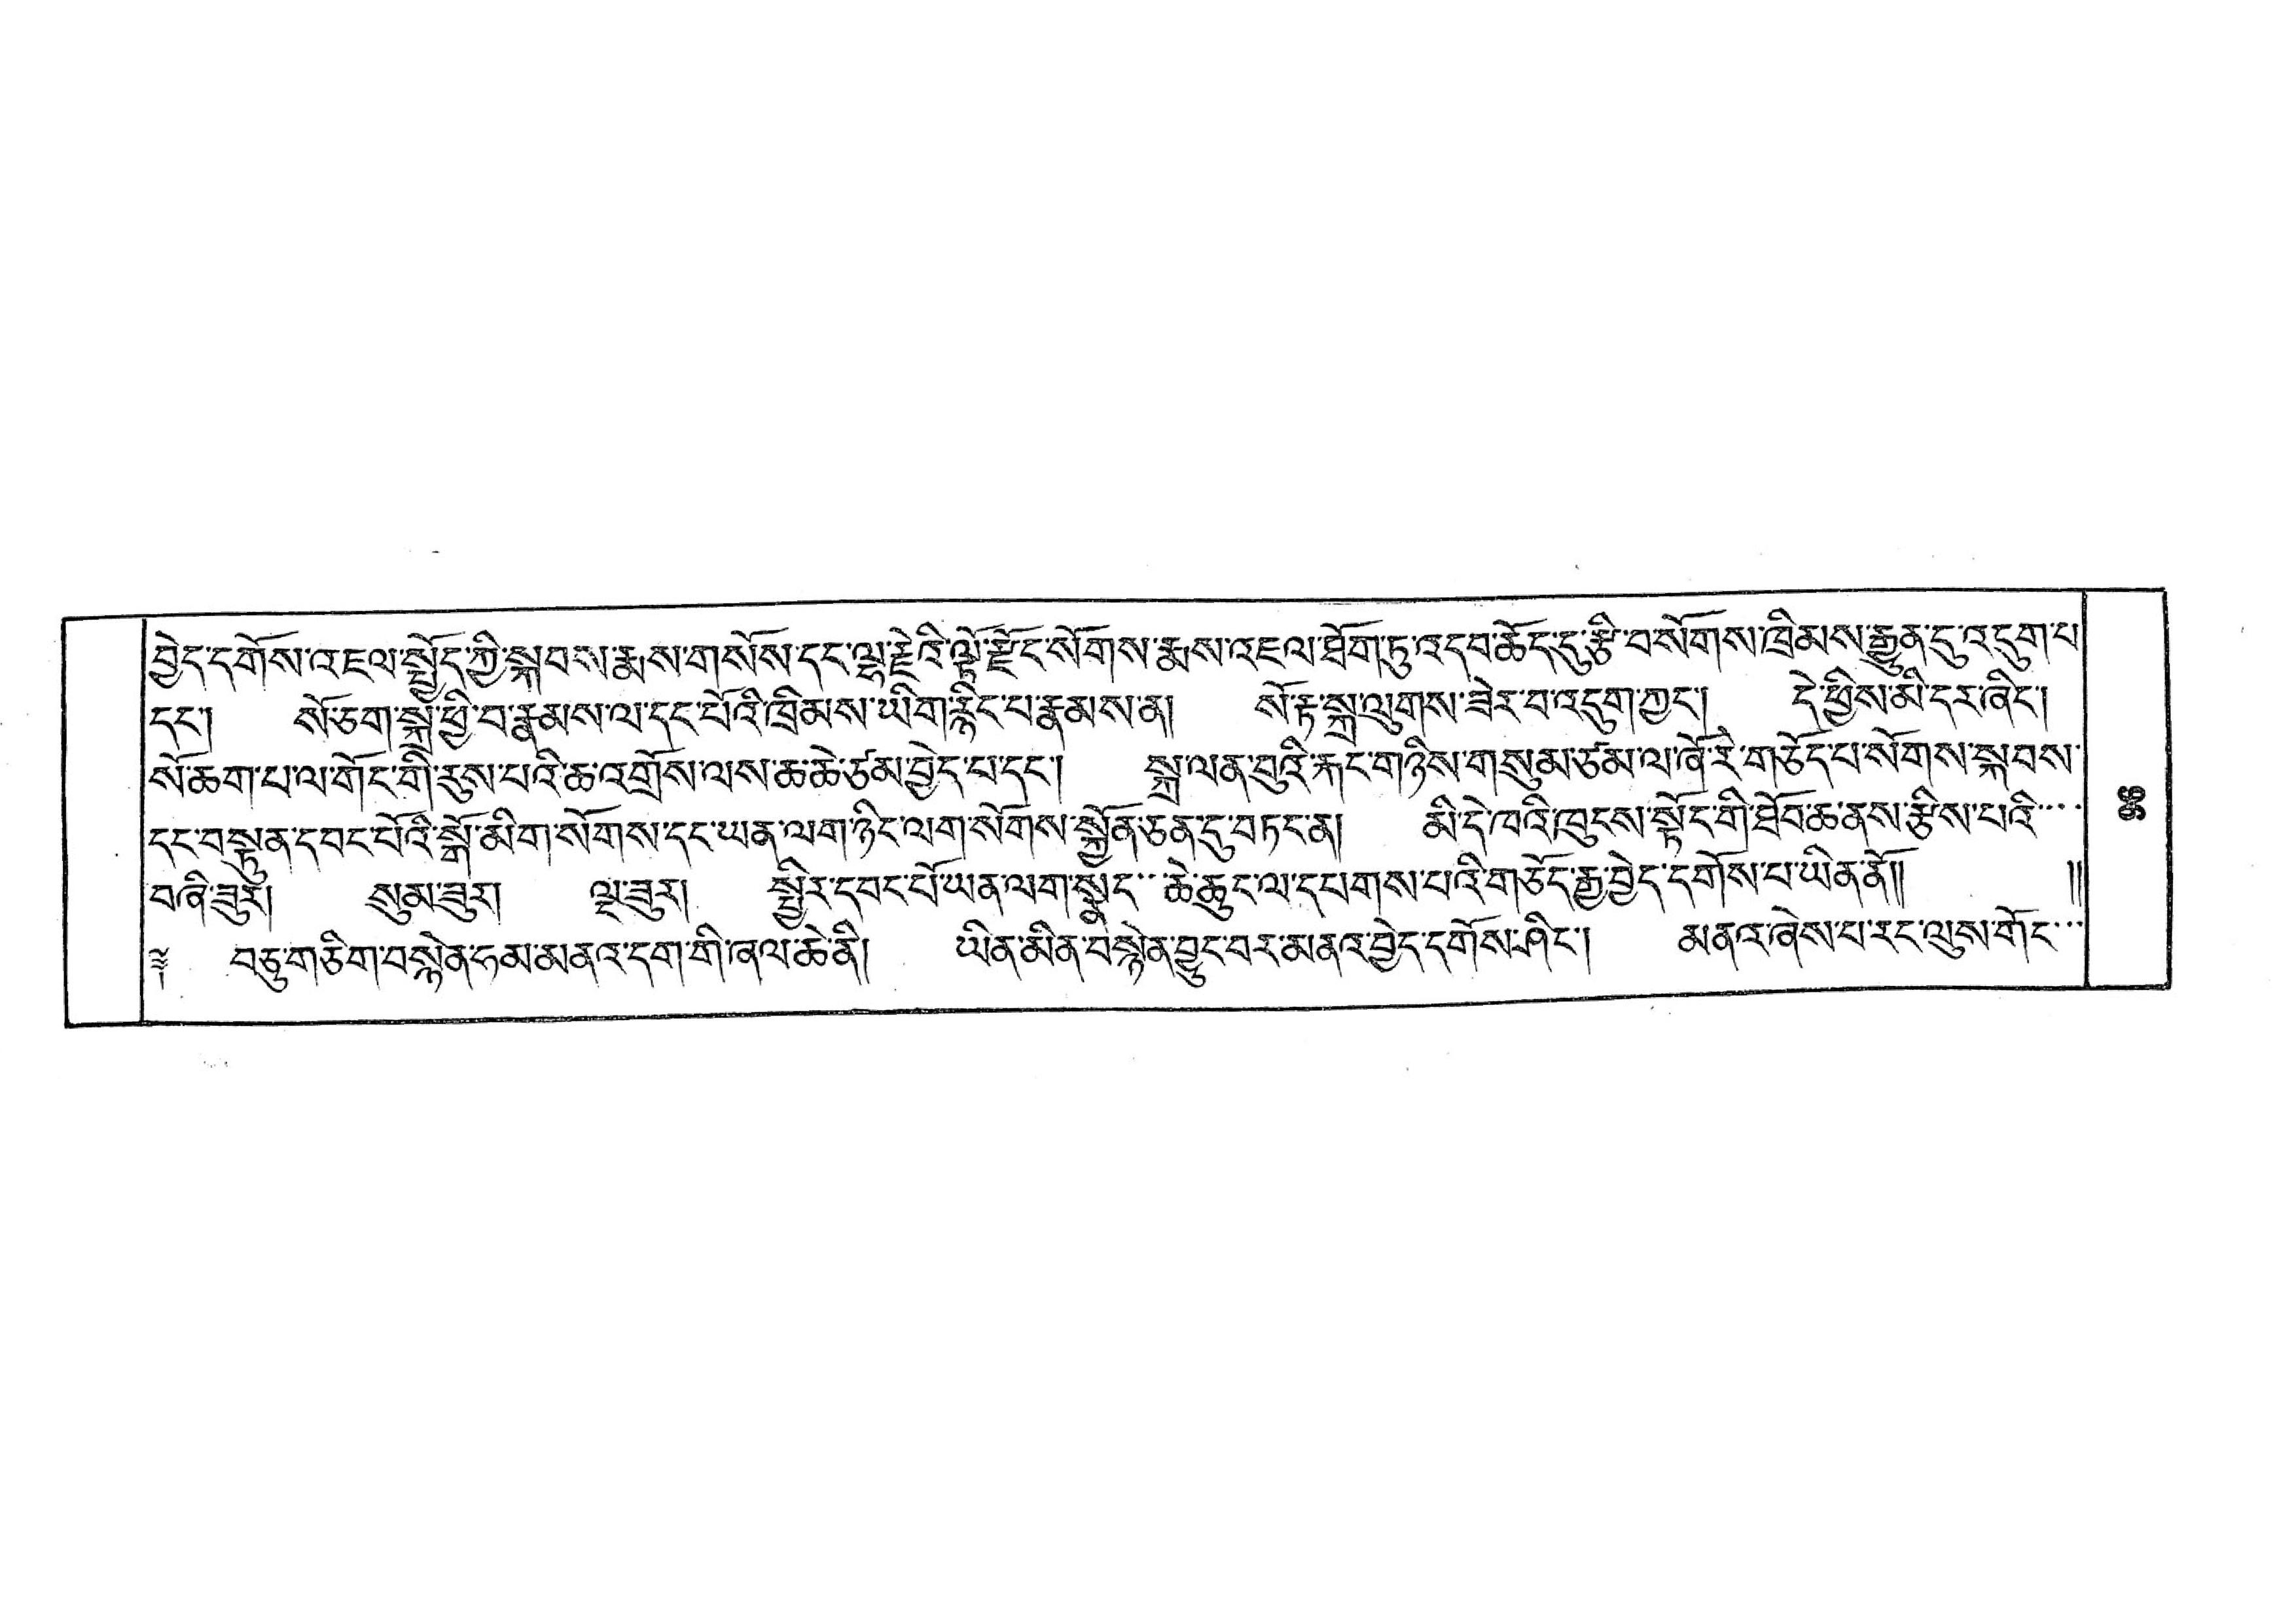བྱེད་དགོས་འཇལ་སྤྱོད་ཀྱི་སྐབས་རྨས་གསོས་དང་ལྷ་རྗེའི་ལྟོ་རྫོང་སོགས་རྨས་འཇལ་ཐོག་ཏུ་འདབ་ཆོད་དུ་རྩི་བ་སོགས་ཁྲིམས་རྒྱུན་དུ་འདུག་པ་
དང་། སོ་ཅག་སྐྲ་ཕྱི་བ་རྣམས་ལ་དང་པོའི་ཁྲིམས་ཡིག་རྙིང་པ་རྣམས་ན། སོ་རྟ་སྐྲ་ལུགས་ཟེར་བ་འདུག་ཀྱང་། དེ་ཕྱིས་མི་དར་ཞིང་།
སོ་ཆག་པ་ལ་གོང་གི་རུས་པའི་ཆ་འགྲོས་ལས་ཆ་ཆེ་ཙམ་བྱེད་པ་དང་། སྐྲ་ལན་བུའི་རྐང་གཉིས་གསུམ་ཙམ་ལ་ཞོ་རེ་གཅོད་པ་སོགས་སྐབས་
དང་བསྟུན་དབང་པོའི་སྒོ་མིག་སོགས་དང་ཡན་ལག་ཉིང་ལག་སོགས་སྐྱོན་ཅན་དུ་བཏང་ན། མི་དེ་ཁའི་ཁུངས་སྟོང་གི་ཐོབ་ཆ་ནས་རྩིས་པའི་་་་
བཞི་ཟུར། སུམ་ཟུར། ལྔ་ཟུར། སྤྱིར་དབང་པོ་ཡན་ལག་སྣང་་་ཆེ་ཆུང་ལ་དཔགས་པའི་གཅོད་རྒྱ་བྱེད་དགོས་པ་ཡིན་ནོ།། །།
༈ བཅུ་གཅིག་བསྙེན་ཧམ་མནའ་དག་གི་ཞལ་ཆེ་ནི། ཡིན་མིན་བསྙེན་བྱུང་བར་མནའ་བྱེད་དགོས་ཤིང་། མནའ་ཞེས་པ་རང་ལུས་གོང་་་
